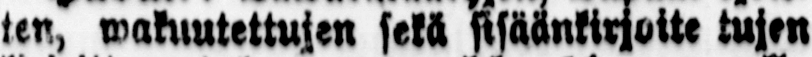ten, wakutettujen sekä sisäankirjoite tujen
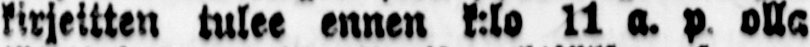kirjeitten tulee ennen k:lo 11 a. p olla
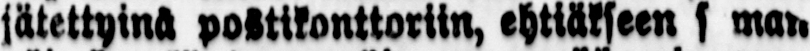jätettyinä postikonttoriin, ehtiäkseen s mau
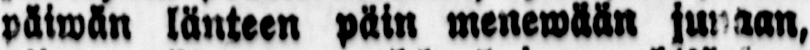päiwän länteen päin menewään junaan,
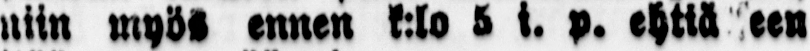niin myös ennen k:lo 5 t. p. ehtiä een
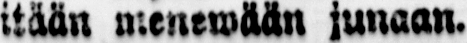itään menewään junaan.
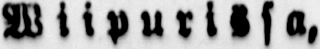Wiipurissa,
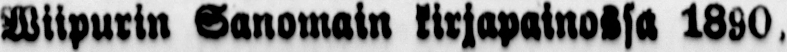Wiipurin Sanomain kirjapainossa 1890.
